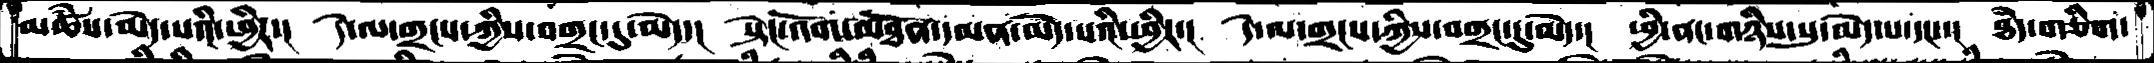མཚཾས་མེད་པའི་ཕྱིར་།  དེ་ལ་གྲངས་ཀྱིས་བགྲང་དུ་མེད་།  སྟེང་འོག་མཐོན་དམན་མེད་པའི་ཕྱིར་།  དེ་ལ་གྲངས་ཀྱིས་བགྲང་དུ་མེད་།  ཕྱི་ནང་གཉིས་སུ་མེད་པ་དང་་།  ཐཾད་གཅིག་
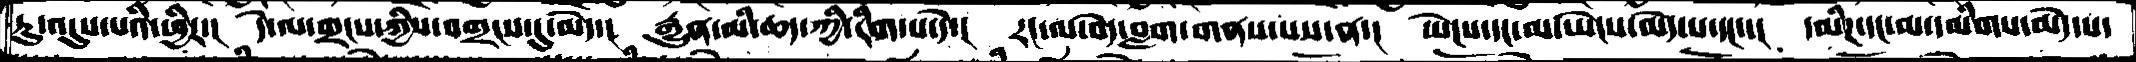ཏུ་འདུས་པའི་ཕྱིར་།  དེ་ལ་གྲངས་ཀྱིས་བགྲངས་དུ་མེད་།  རྒྱུན་མི་ཆད་ཀྱི་རིག་པ་དེ་།  རང་ལ་བདེ་བླག་གནས་པས་ན་།  ཡེངས་དང་མ་ཡེངས་མེད་པ་དང་།   དམིཌ་དང་མ་དམིགས་མེད་པ་
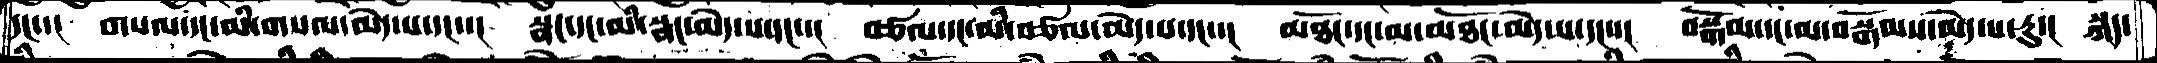དང་་།  གསལ་དང་མི་གསལ་མེད་པ་དང་་།  སྣང་དང་མི་སྣང་མེད་པ་དང་་།  བཙལ་དང་མི་བཙལ་མེད་པ་དང་་།  མཐོང་དང་མ་མཐོང་མེད་པ་དང་་།  བསྒོམ་དང་མ་བསྒོམས་མེད་པ་རུ་།  སྐད་
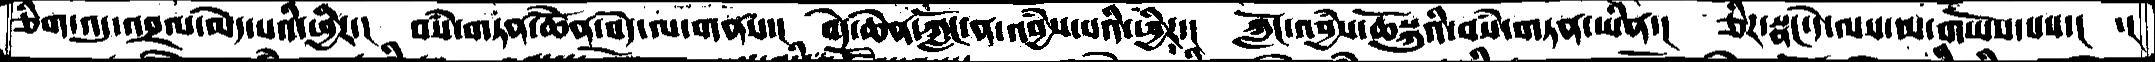ཅིག་འདུ་འབྲལ་མེད་པའི་ཕྱིར་།  བསཾ་གཏན་ཆོེན་བདེ་ལ་གནས་།  བདེ་ཆེན་ཀློང་ན་འབྱཾས་པའི་ཕྱིར་།  ཀློང་འབྱཾས་ཆོསྐུའི་བསཾ་གཏན་ཡིན་།  ཅིར་སྣང་དེ་ལས་མ་གཡོས་པས་།  ་།
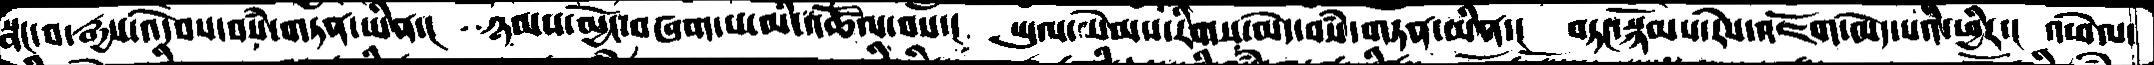སྣང་བ་རྒྱས་འདེབས་བསཾ་གཏན་ཡིན་།  ཉམས་མྱོང་བཞག་པ་མི་འཚོལ་བས་།  ཡུལ་སེམས་རིགས་མེད་བསྃ་གཏན་མིན་།  བཏང་སྙོམས་རེས་འཇོག་མེད་པའི་ཕྱིར་།  འཕེལ་
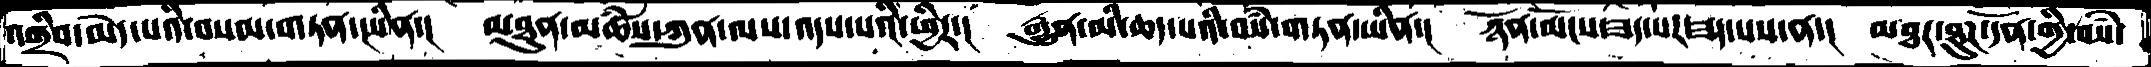འགྲིབ་མེད་པའི་བསམ་གཏན་ཡིན་།  མཐུན་མཚཾས་ཀུན་ལས་འདས་པའི་ཕྱིར་།  རྒྱུན་མི་ཆད་པའི་བསཾ་གཏན་ཡིན་།  ཉོན་མོངས་ཟད་པར་ཟད་པས་ན་།  མཐར་ཐུཌ་དོན་གྱི་སེཾས་
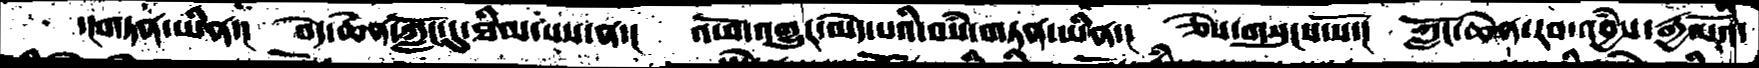་།གཏན་ཡིན་།  བདེ་ཆེན་ཀློང་དུ་ཐིམ་པས་ན་།  འཕོ་འགྱུར་མེད་པའི་བསཾ་གཏན་ཡིན་།  ཅེས་གསུངས་སོ་།  ཀློང་ཆེན་རབ་འབྱཾས་རྒྱལོའི་
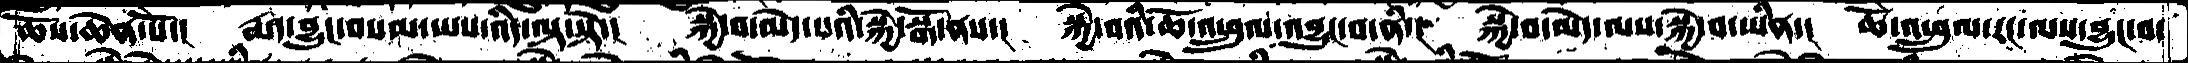ཆོས་ཆེན་པོ་།   རྨད་བྱུང་བསམ་ཡས་འདི་ལྟ་སྟེ་།  སྐྱེ་བ་མེད་པའི་སྐྱེ་སྒོ་ནས་།  སྐྱེ་བའི་ཆོ་འཕྲུལ་འབྱུང་བ་ནི་།  སྐྱེ་བ་མེད་ལས་སྐྱེ་བ་ཡིན་།  ཆོ་འཕྲུལ་རང་ལས་བྱུང་བ་
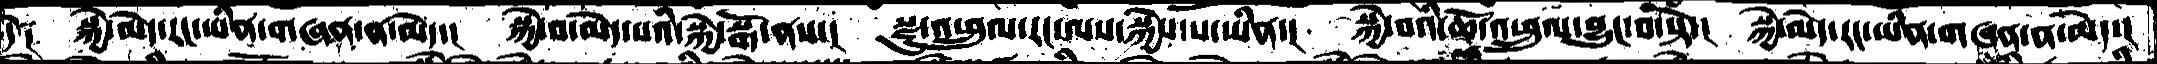དེ༑  སྐྱེ་མེད་རང་ཡིན་གཞན་ན་མེད་།  སྐྱེ་བ་མེད་པའི་སྐྱེ་སྒོ་ནས་།  སྫུ་འཕྲུལ་རང་ལས་སྐྱེས་པ་ཡིན་།  སྐྱེ་བའི་ཆོ་འཕྲུལ་བྱུང་བ་སྟེ་།  སྐྱེ་མེད་རང་ཡིན་གཞན་ན་མེད་།
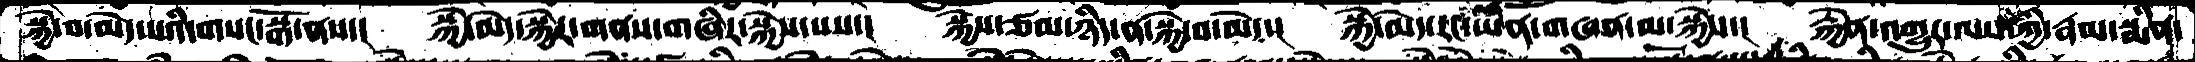སྐྱེ་བ་མེད་པའི་གསང་སྒོ་ནས་།  སྐྱེ་མེད་སྐྱེར་གནས་གཞིར་སྐྱེས་པས་།  སྐྱེས་ཙམ་ཉིད་ན་སྐྱེ་བ་མེད་།  སྐྱེ་མེད་རང་ཡིན་གཞན་མ་སྐྱེས་།  རྐྱེན་འགྱུར་ལས་ཀྱི་རྣམ་སྨིན་
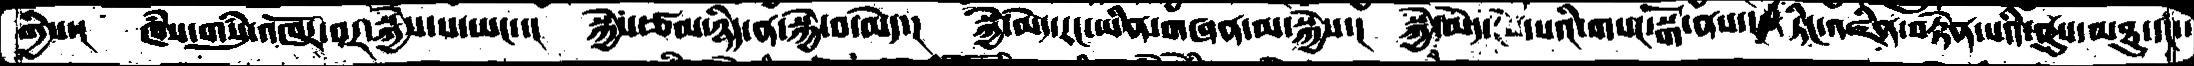གྱིས་།  ཁཾས་གསུཾ་འཁོར་བར་སྐྱེས་པ་ཡང་་།  སྐྱེས་ཙམ་ཉིད་ན་སྐྱེ་བ་མེད་།  སྐྱེ་མེད་རང་ཡིན་གཞན་མ་སྐྱེས་།  སྐྱེ་མེད་ངེས་པའི་གསང་སྒོ་ནས་། ཏིང་འཛིན་བརྟེན་པའི་ནུས་མཐུ་དང་་
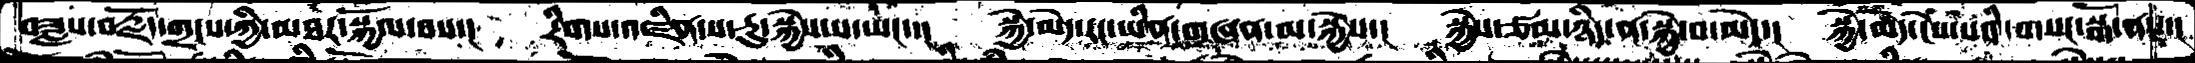བཟླས་བརྗོད་གྲངས་ཀྱི་མཐར་སྐྱོལ་བས་།  རིགས་འཛིན་ས་རུ་སྐྱེས་པ་ཡང་་།  སྐྱེ་མེད་རང་ཡིན་གཞན་མ་སྐྱེས་།  སྐྱེས་ཙམ་ཉིད་ན་སྐྱེ་བ་མེད་།  སྐྱེ་མེད་ངེས་པའི་གསང་སྒོ་ནས་།
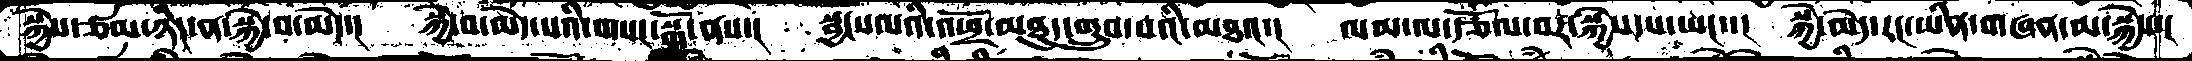སྐྱེས་ཙམ་ཉིད་ན་སྐྱེ་བ་མེད་།  སྐྱེ་བ་མེད་པའི་གསང་སྒོ་ནས་།  སྦྱངས་པའི་འཕྲོ་མཐུད་གྲུབ་པའི་མཐའ་།  ལམ་ལ་རྩོལ་བར་སྐྱེས་པ་ཡང་་།  སྐྱེ་མེད་རང་ཡིན་གཞན་མ་སྐྱེས་།
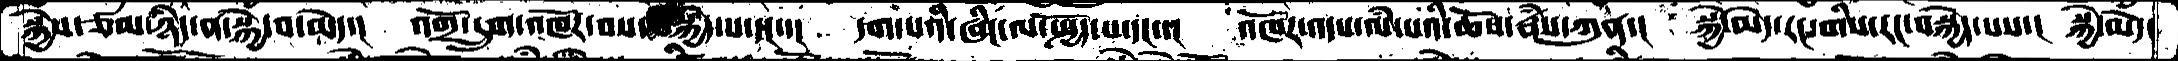སྐྱེས་ཙམ་ཉིད་ན་སྐྱེ་བ་མེད་།  འགྲོ་དྲུག་འཁོར་བས་བསྐྱེད་པ་དང་་།  དག་པའི་ཞིང་ལ་སྤྱོད་པ་དང་་།  འཁོར་འདས་ལཾ་པའི་ཆོས་རྣཾས་ཀུན་།  སྐྱེ་མེད་རང་གིས་རང་བསྐྱེད་པས་།  སྐྱེ་མེད་
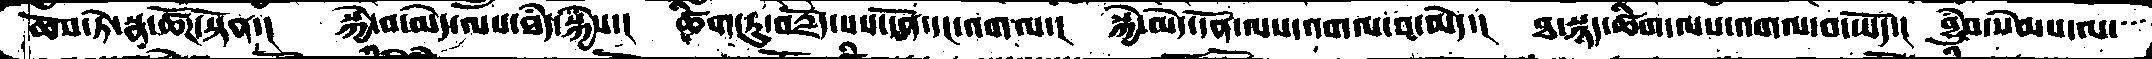ཆོས་ཏེ་སྣ་ཚོཌ་སྟོན་།  སྐྱེ་བ་མེད་ལས་ཐཾད་སྐྱེས་།  ཚིག་ཏུ་བརྗོད་པས་དོན་དང་འགལ་།  སྐྱེ་མེད་དོན་ལས་འགལ་བ་མེད་།  ཐ་སྙད་ཚིག་ལས་འགལ་བ་ཡོད་།  བྱུཾབ་སེམས་ལ་
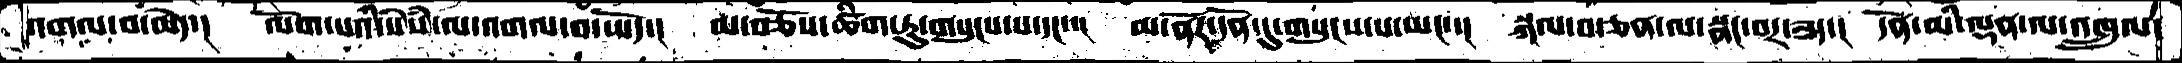འགལ་བ་མེད་།  ལོག་པའི་སེཾས་ལ་འགལ་བ་ཡོད་།  མ་བཅོས་ཚིག་ཏུ་གསུངས་པ་དང་་།  མ་ནོར་དོན་དུ་གསུངས་པ་ཡང་་།  སྐལ་བ་ཅན་པ་སྣང་བར་ཟད་།  དོན་མི་ལྡན་ལ་འཁྲུལ་
